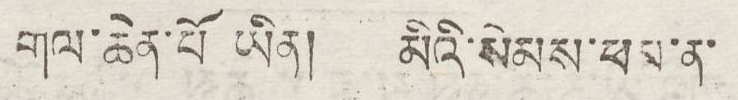གལ་ཆེན་པོ ཡིན། མིའི་སེམས་ཕམ་ན་
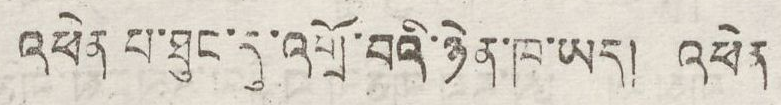འཕེན པ་ཐུང་དུ་འགྲོ་བའི་ཉེན་ཁ་ཡད། འཕེན
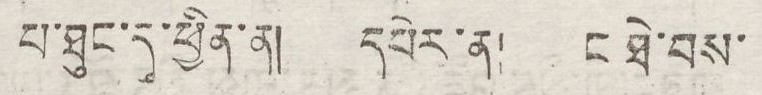པ་ཐུང་དུ་ཕྱིན་ན། དཔེར་ན། ང ཐེ་བས་
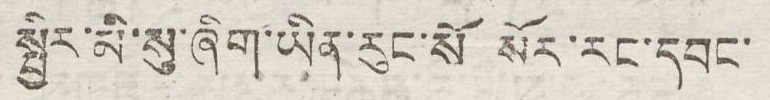སྤྱིར་མི་སུ་ཞིག་ཡིན་རུང་སོ སོར་རང་དབང་
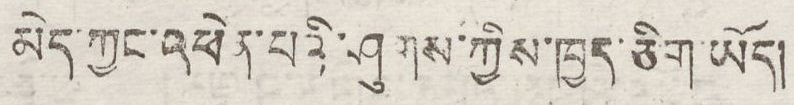མེད་ཀྱང་འཕེན་པའི་ཤུགས་ཀྱིས་ཁྱད་ཅིག་ཡོད།
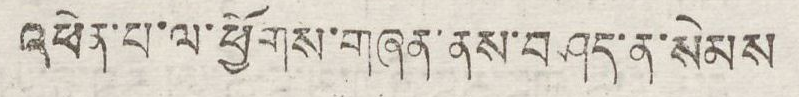འཕེན་པ་ལ་ཕྱོགས་གཞན་ནས་བཤད་ན་སེམས
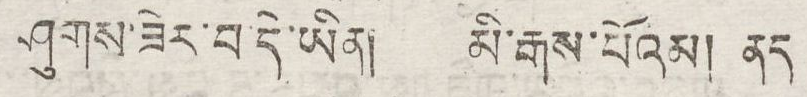ཤུགས་ཟེར་བ་དེ་ཡིན། མི་རྒས་པོའམ། ནད
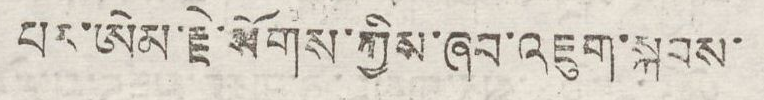པར་ཨེམ་རྗེ་སོགས་ཀྱིས་ཞབ་འཇུག་སྐབས་
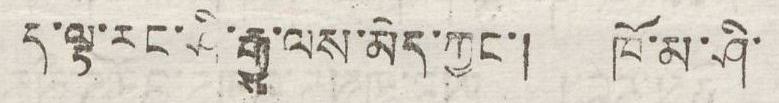ད་ལྟ་རང་ཤི་རྒྱུ་ལས་མེད་ཀྱང་། ཁོ་མ་ཤི་
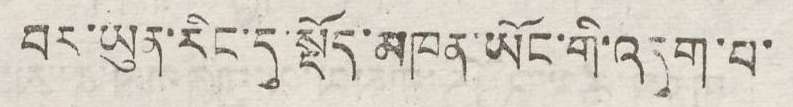བར་ཡུན་རིང་དུ་སྡོད་མཁན་ཡོང་གི་འདུག་པ་
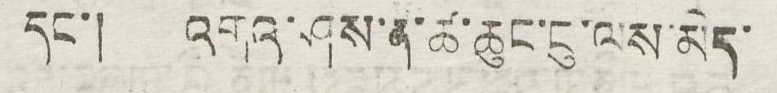དང་། འགའ་ཤས་ན་ཚ་ཆུང་ངུ་ལས་མེད་
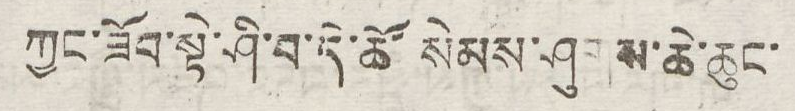ཀྱང་ཟོབ་སྟེ་ཤི་བ་དེ་ཚོ་སེམས་ཤུགས་ཆེ་ཆུང་
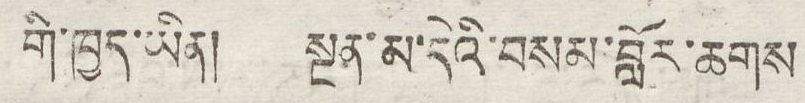གི་ཁྱད་ཡིན། སྔན་མ་དེའི་བསམ་བློར་ཆགས
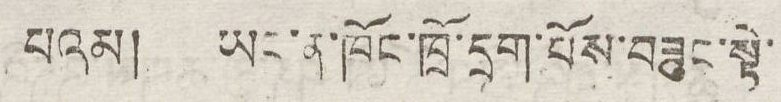པའམ། ཡང་ན་ཁོང་ཁྲོ་དྲག་པོས་བཟུང་སྟེ་
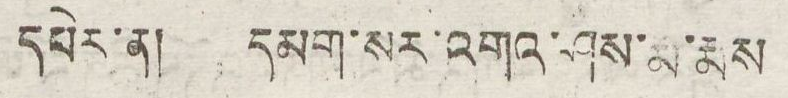དཔེར་ན། དམག་སར་འགའ་ཤས་རྨ་རྨས
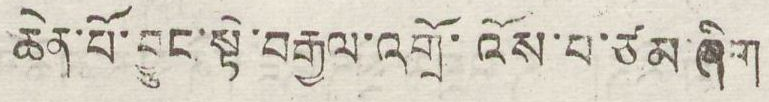ཆེན་པོ་བྱུང་སྟེ་བརྒྱལ་འགྲོ་འོས་པ་ཙམ་ཞིག
